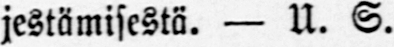jestämisestä. — U. S.
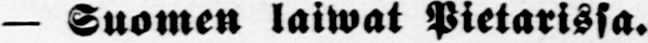— Suomen laiwat Pietarissa.
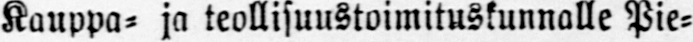Kauppa- ja teollisuustoimituskunnalle Pie-
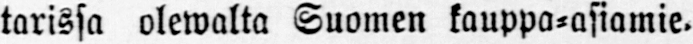tarissa olewalta Suomen kauppa-asiamie-
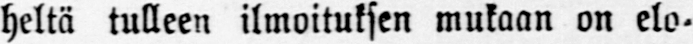heltä tulleen ilmoituksen mukaan on elo-
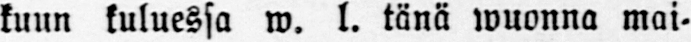kuun kuluessa w. l. tänä wuonna mai-
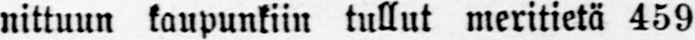nittuun kaupunkiin tullut meritietä 459
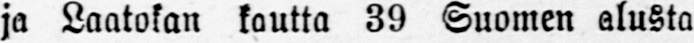ja Laatokan kautta 39 Suomen alusta
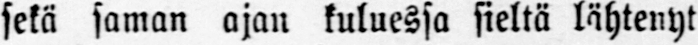sekä saman ajan kuluessa sieltä lähtenyt
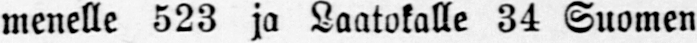menelle 523 ja Laatokalle 34 Suomen
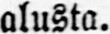alusta.
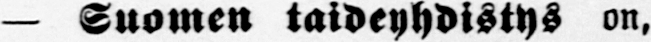— Suomen taideyhdistys on,
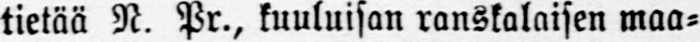tietää N. Pr., kuuluisan ranskalaisen maa-
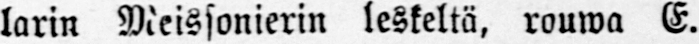larin Meissonierin leskeltä, rouwa E.
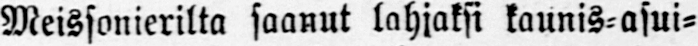Meissonierilta saanut lahjaksi kaunis-asui-
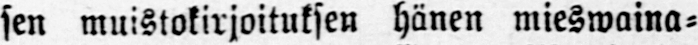sen muistokirjoituksen hänen mieswaina-
